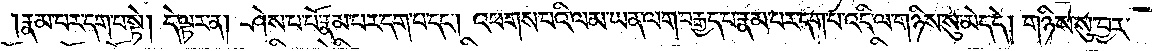རྣམ་པར་དག་པ་སྟེ། དེ་ལྟར་ན། ཤེས་པ་པོ་རྣམ་པར་དག་པ་དང༌། འཕགས་པའི་ལམ་ཡན་ལ་བརྒྱད་པ་རྣམ་པར་དག་པ་འདི་ལ་གཉིས་སུ་མེད་དེ། གཉིས་སུ་བྱར་
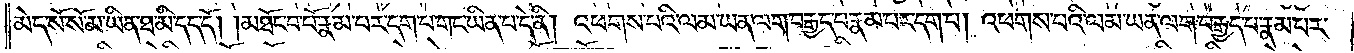མེད་སོ་སོ་མ་ཡིན་ཐ་མི་དད་དོ། །མཐོང་བ་པོ་རྣམ་པར་དག་པ་གང་ཡིན་པ་དེ་ནི། འཕགས་པའི་ལམ་ཡན་ལག་བརྒྱད་པ་རྣམ་པར་དག་པ། འཕགས་པའི་ལམ་ཡན་ལག་བརྒྱད་པ་རྣམ་པར་
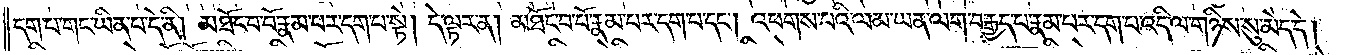དག་པ་གང་ཡིན་པ་དེ་ནི། མཐོང་བ་པོ་རྣམ་པར་དག་པ་སྟེ། དེ་ལྟར་ན། མཐོང་བ་པོ་རྣམ་པ་དག་པ་དང༌། འཕགས་པའི་ལམ་ཡན་ལག་བརྒྱད་པ་རྣམ་པ་དག་པ་འདི་ལ་གཉིས་སུ་མེད་དེ།
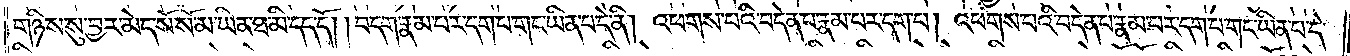གཉིས་སུ་བྱར་མེད་སོ་སོ་མ་ཡིན་ཐ་མི་དད་དོ། །བདག་རྣམ་པར་དག་པ་གང་ཡིན་པ་དེ་ནི། འཕགས་པའི་བདེན་པ་རྣམ་པར་དག་པ། འཕགས་པའི་བདེན་པ་རྣམ་པར་དག་པ་གང་ཡིན་པ་དེ་
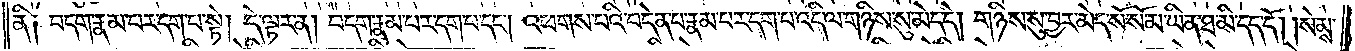ནི། བདག་རྣམ་པར་དག་པ་སྟེ། དེ་ལྟར་ན། བདག་རྣམ་པར་དག་པ་དང༌། འཕགས་པའི་བདེན་པ་རྣམ་པར་དག་པ་འདི་ལ་གཉིས་སུ་མེད་དེ། གཉིས་སུ་བྱར་མེད་སོ་སོ་མ་ཡིན་ཐ་མི་དད་དོ། །སེམས་
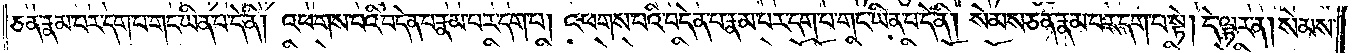ཅན་རྣམ་པར་དག་པ་གང་ཡིན་པ་དེ་ནི། འཕགས་པའི་བདེན་པ་རྣམ་པར་དག་པ། འཕགས་པའི་བདེན་པ་རྣམ་པར་དག་པ་གང་ཡིན་པ་དེ་ནི། སེམས་ཅན་རྣམ་པར་དག་པ་སྟེ། དེ་ལྟར་ན། སེམས་
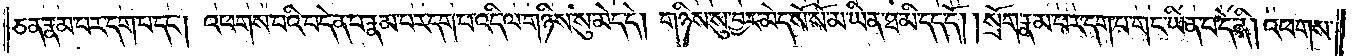ཅན་རྣམ་པར་དག་པ་དང༌། འཕགས་པའི་བདེན་པ་རྣམ་པར་དག་པ་འདི་ལ་གཉིས་སུ་མེད་དེ། གཉིས་སུ་བྱར་མེད་སོ་སོ་མ་ཡིན་ཐ་མི་དད་དོ། །སྲོག་རྣམ་པར་དག་པ་གང་ཡིན་པ་དེ་ནི། འཕགས་
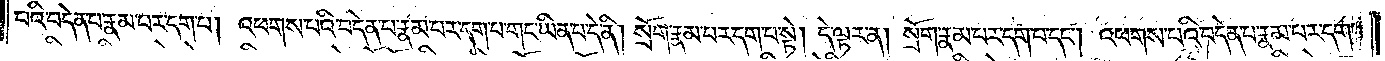པའི་བདེན་པ་རྣམ་པར་དག་པ། འཕགས་པའི་བདེན་པ་རྣམ་པར་དག་པ་གང་ཡིན་པ་དེ་ནི། སྲོག་རྣམ་པར་དག་པ་སྟེ། དེ་ལྟར་ན། སྲོག་རྣམ་པར་དག་པ་དང༌། འཕགས་པའི་བདེན་པ་རྣམ་པར་དག་
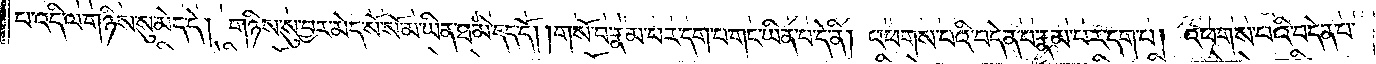པ་འདི་ལ་གཉིས་སུ་མེད་དེ། གཉིས་སུ་བྱར་མེད་སོ་སོ་མ་ཡིན་ཐ་མི་དད་དོ། །གསོ་བ་རྣམ་པར་དག་པ་གང་ཡིན་པ་དེ་ནི། འཕགས་པའི་བདེན་པ་རྣམ་པར་དག་པ། འཕགས་པའི་བདེན་པ་
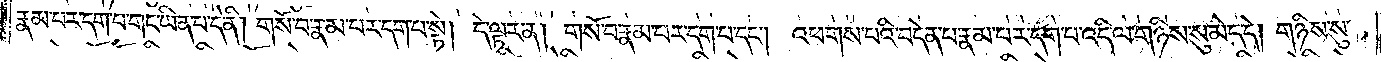རྣམ་པར་དག་པ་གང་ཡིན་པ་དེ་ནི། གསོ་བ་རྣམ་པར་དག་པ་སྟེ། དེ་ལྟར་ན། གསོ་བ་རྣམ་པར་དག་པ་དང༌། འཕགས་པའི་བདེན་པ་རྣམ་པར་དག་པ་འདི་ལ་གཉིས་སུ་མེད་དེ། གཉིས་སུ་
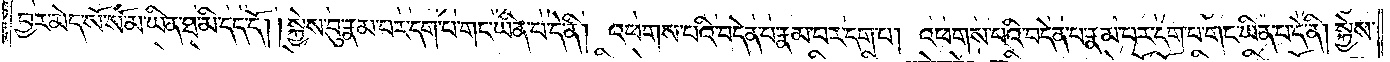བྱར་མེད་སོ་སོ་མ་ཡིན་ཐ་མི་དད་དོ། །སྐྱེས་བུ་རྣམ་པར་དག་པ་གང་ཡིན་པ་དེ་ནི། འཕགས་པའི་བདེན་པ་རྣམ་པར་དག་པ། འཕགས་པའི་བདེན་པ་རྣམ་པར་དག་པ་གང་ཡིན་པ་དེ་ནི། སྐྱེས་
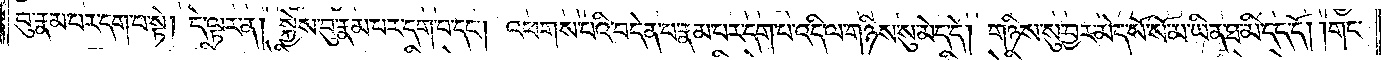བུ་རྣམ་པར་དག་པ་སྟེ། དེ་ལྟར་ན། སྐྱེས་བུ་རྣམ་པར་དག་པ་དང༌། འཕགས་པའི་བདེན་པ་རྣམ་པར་དག་པ་འདི་ལ་གཉིས་སུ་མེད་དེ། གཉིས་སུ་བྱར་མེད་སོ་སོ་མ་ཡིན་ཐ་མི་དད་དོ། །གང་
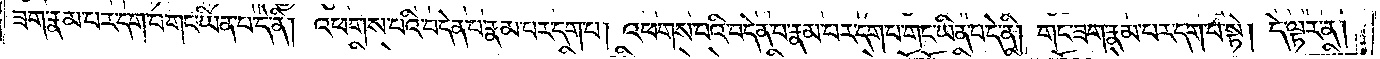ཟག་རྣམ་པར་དག་པ་གང་ཡིན་པ་དེ་ནི། འཕགས་པའི་བདེན་པ་རྣམ་པར་དག་པ། འཕགས་པའི་བདེན་པ་རྣམ་པར་དག་པ་གང་ཡིན་པ་དེ་ནི། གང་ཟག་རྣམ་པར་དག་པ་སྟེ། དེ་ལྟར་ན།
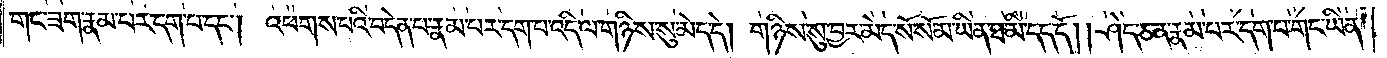གང་ཟག་རྣམ་པར་དག་པ་དང༌། འཕགས་པའི་བདེན་པ་རྣམ་པར་དག་པ་འདི་ལ་གཉིས་སུ་མེད་དེ། གཉིས་སུ་བྱར་མེད་སོ་སོ་མ་ཡིན་ཐ་མི་དད་དོ། །ཤེད་ཅན་རྣམ་པར་དག་པ་གང་ཡིན་
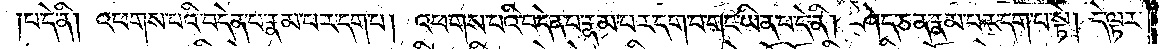པ་དེ་ནི། འཕགས་པའི་བདེན་པ་རྣམ་པར་དག་པ། འཕགས་པའི་བདེན་པ་རྣམ་པར་དག་པ་གང་ཡིན་པ་དེ་ནི། ཤེད་ཅན་རྣམ་པར་དག་པ་སྟེ། །དེ་ལྟར་
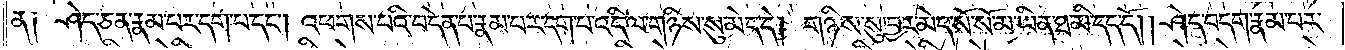ན། ཤེད་ཅན་རྣམ་པར་དག་པ་དང༌། འཕགས་པའི་བདེན་པ་རྣམ་པར་དག་པ་འདི་ལ་གཉིས་སུ་མེད་དེ། གཉིས་སུ་བྱར་མེད་སོ་སོ་མ་ཡིན་ཐ་མི་དད་དོ། །ཤེད་བདག་རྣམ་པར་
